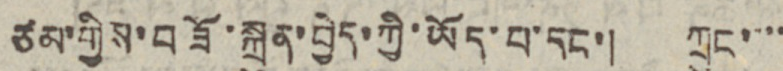ཙམ་གྱིས་བཟོ་སྐྲུན་བྱེད་ཀྱི་ཡོད་པ་དང་། ཀྲུང་་་་
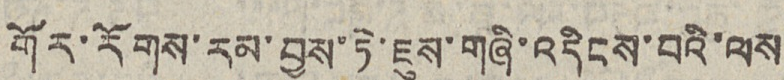གོར་རོགས་རམ་བྱས་ཏེ་ཇུས་གཞི་འདིངས་བའི་ལས
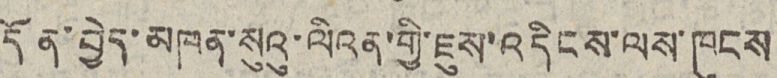དོན་བྱེད་མཁན་སུའུ་ལིའན་གྱི་ཇུས་འདིངས་ལས་ཁུངས
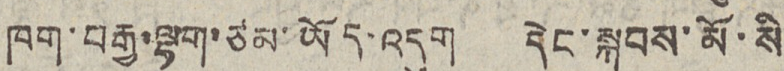ཁག་བརྒྱ་ལྷག་ཙམ་ཡོད་འདུག དེང་སྐབས་མོ་སི
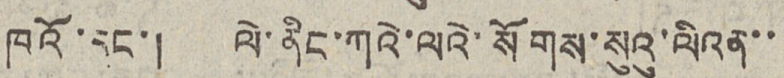ཁའོ་དང་། ལེ་ནིང་ཀའེ་ལའེ་སོགས་སུའུ་ལིའན་་
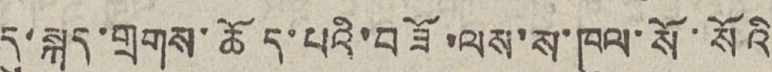དུ་སྐད་གྲགས་ཆོད་པའི་བཟོ་ལས་ས་ཁུལ་སོ་སོའི
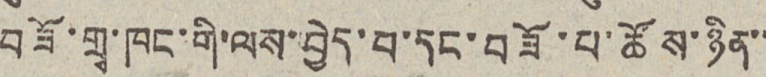བཟོ་གྲྭ་ཁང་གི་ལས་བྱེད་པ་དང་བཟོ་པ་ཚོས་ཉིན་་
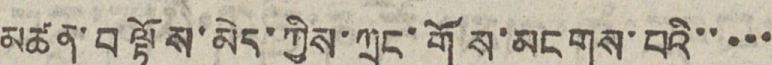མཚན་བལྟོས་མེད་ཀྱིས་ཀྲུང་གོས་མངགས་པའི་་་་་
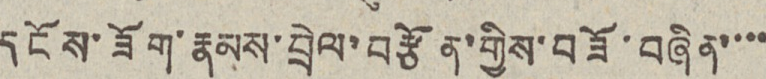དངོས་ཟོག་རྣམས་བྲེལ་བརྩོན་གྱིས་བཟོ་བཞིན་་་་
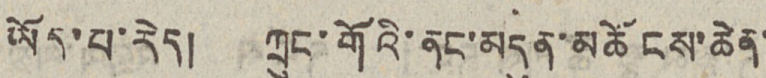ཡོད་པ་རེད། ཀྲུང་གོའི་ནང་མདུན་མཆོངས་ཆེན་
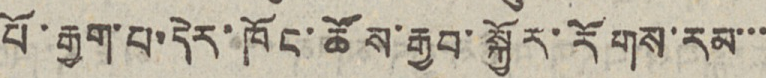པོ་རྒྱག་པ་དེར་ཁོང་ཚོས་རྒྱབ་སྐྱོར་རོགས་རམ་་་
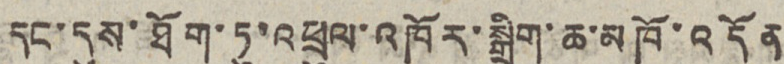དང་དུས་ཐོག་ཏུ་འཕྲུལ་འཁོར་སྒྲིག་ཆ་མཁོ་འདོན
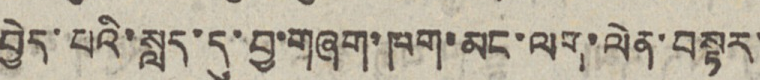བྱེད་པའི་སླད་དུ་བྱ་གཞག་ཁག་མང་ལག་ལེན་བསྟར་
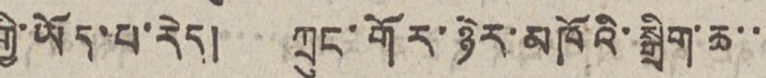གྱི་ཡོད་པ་རེད། ཀྲུང་གོར་ཉེར་མཁོའི་སྒྲིག་ཆ་་
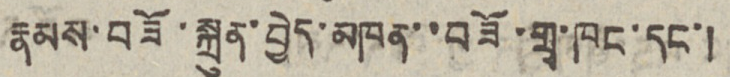རྣམས་བཟོ་སྐྲུན་བྱེད་མཁན་་བཟོ་གྲྭ་ཁང་དང་།
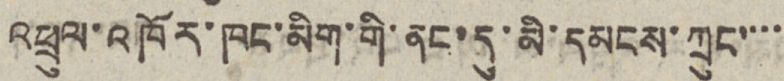འཕྲུལ་འཁོར་ཁང་མིག་གི་ནང་དུ་མི་དམངས་ཀྲུང་་་་
